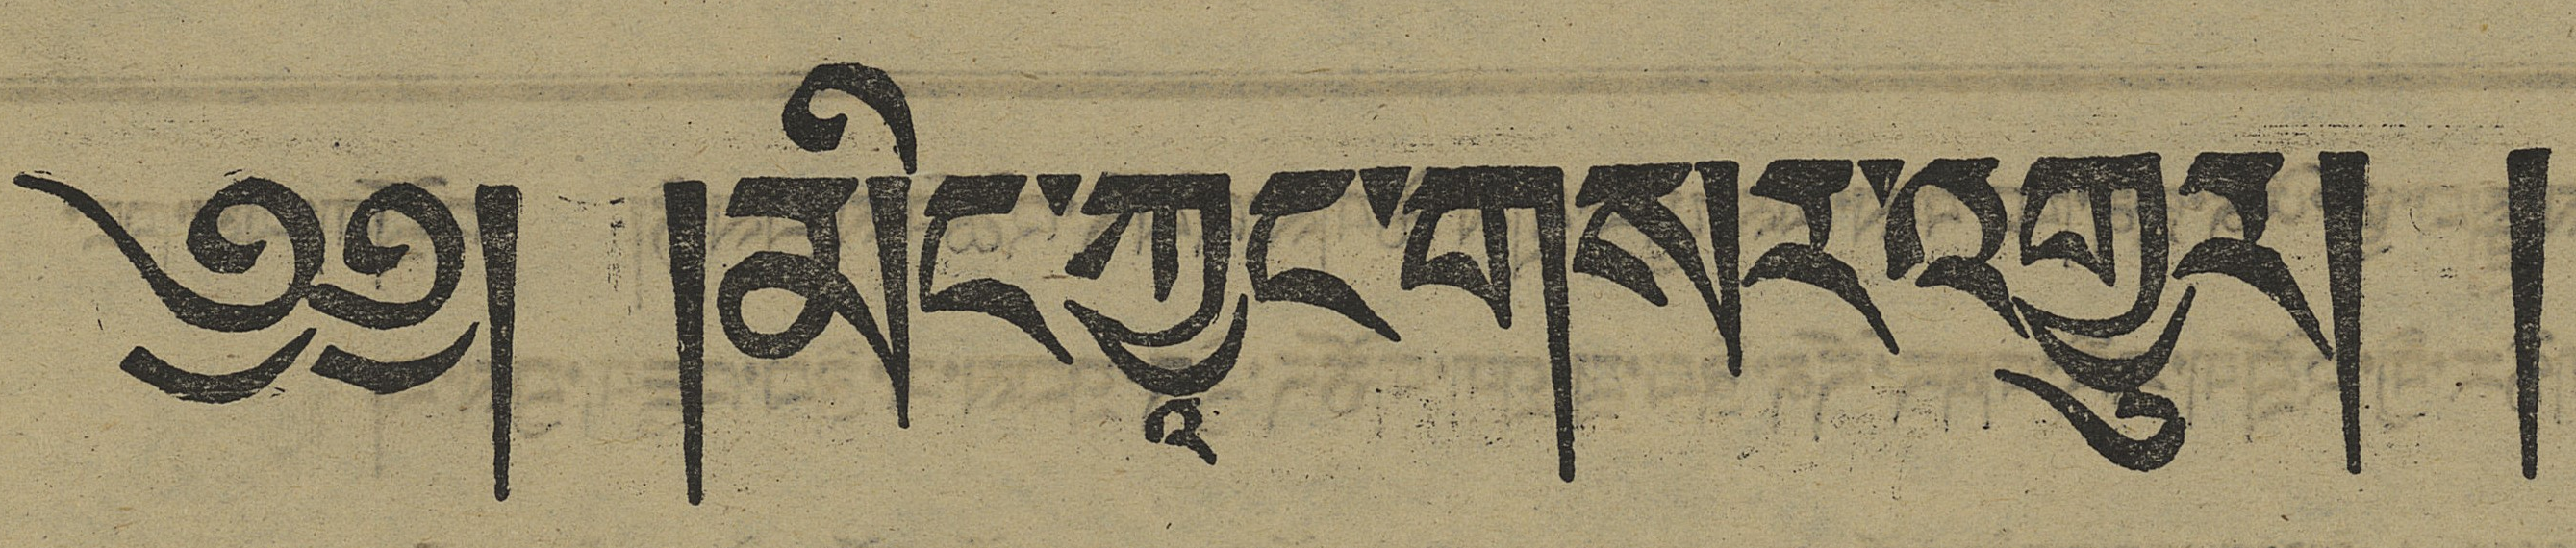༄༅། །མིང་ཀྱཱང་གསར་འགྱུར། །
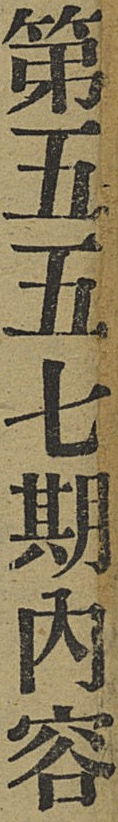第五五七期內容
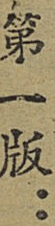第一版：
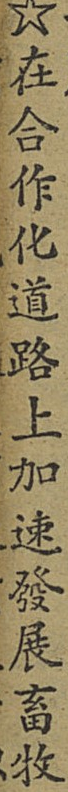☆在合作化道路上加速發展畜牧
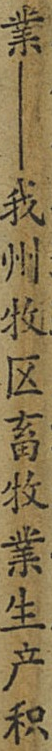業——我州牧区畜牧業生产积
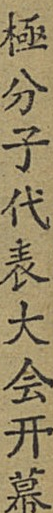極分子代表大会开幕
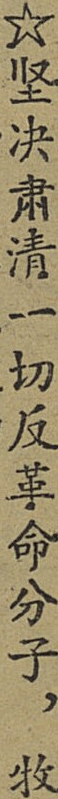☆坚决肃清一切反革命分子，牧
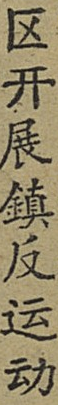区开展鎮反运动
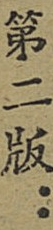第二版：
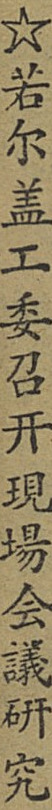☆若尔盖工委召开現場會議研究
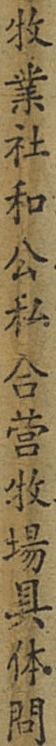牧業社和公私合营牧場具体問
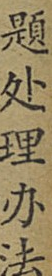題处理办法
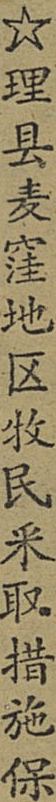☆理县麦窪地区牧民采取措施保
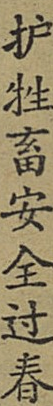护牲畜安全过春
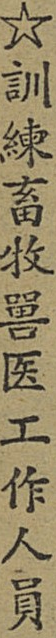☆訓練畜牧嘼医工作人員
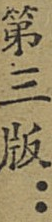第三版：
